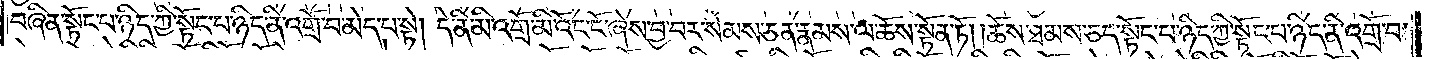བཞིན་སྟོང་པ་ཉིད་ཀྱི་སྟོང་པ་ཉིད་ནི་འགྲོ་བ་མེད་པ་སྟེ། དེ་ནི་མི་འགྲོ་མི་འོང་ངོ་ཞེས་བྱ་བར་སེམས་ཅན་རྣམས་ལ་ཆོས་སྟོན་ཏོ། །ཆོས་ཐམས་ཅད་སྟོང་པ་ཉིད་ཀྱི་སྟོང་པ་ཉིད་ནི་འགྲོ་བ་
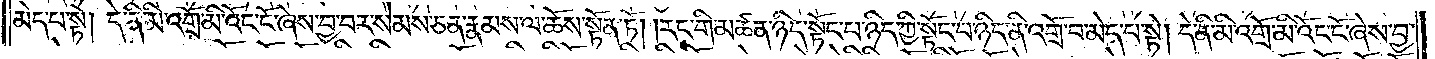མེད་པ་སྟེ། དེ་ནི་མི་འགྲོ་མི་འོང་ངོ་ཞེས་བྱ་བར་སེམས་ཅན་རྣམས་ལ་ཆོས་སྟོན་ཏོ། །རང་གི་མཚན་ཉིད་སྟོང་པ་ཉིད་ཀྱི་སྟོང་པ་ཉིད་ནི་འགྲོ་བ་མེད་པ་སྟེ། དེ་ནི་མི་འགྲོ་མི་འོང་ངོ་ཞེས་བྱ་
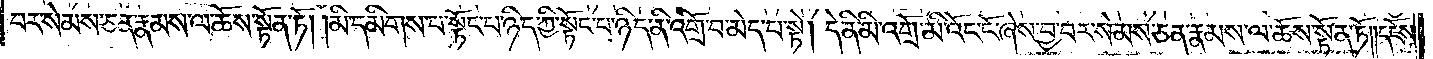བར་སེམས་ཅན་རྣམས་ལ་ཆོས་སྟོན་ཏོ། །མི་དམིགས་པ་སྟོང་པ་ཉིད་ཀྱི་སྟོང་པ་ཉིད་ནི་འགྲོ་བ་མེད་པ་སྟེ། དེ་ནི་མི་འགྲོ་མི་འོང་ངོ་ཞེས་བྱ་བར་སེམས་ཅན་རྣམས་ལ་ཆོས་སྟོན་ཏོ། །དངོས་
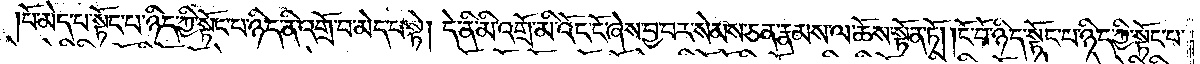པོ་མེད་པ་སྟོང་པ་ཉིད་ཀྱི་སྟོང་པ་ཉིད་ནི་འགྲོ་བ་མེད་པ་སྟེ། དེ་ནི་མི་འགྲོ་མི་འོང་ངོ་ཞེས་བྱ་བར་སེམས་ཅན་རྣམས་ལ་ཆོས་སྟོན་ཏོ། །ངོ་བོ་ཉིད་སྟོང་པ་ཉིད་ཀྱི་སྟོང་པ་
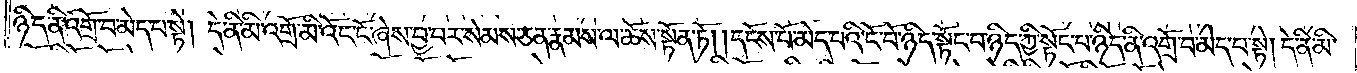ཉིད་ནི་འགྲོ་བ་མེད་པ་སྟེ། དེ་ནི་མི་འགྲོ་མི་འོང་ངོ་ཞེས་བྱ་བར་སེམས་ཅན་རྣམས་ལ་ཆོས་སྟོན་ཏོ། །དངོས་པོ་མེད་པའི་ངོ་བོ་ཉིད་སྟོང་པ་ཉིད་ཀྱི་སྟོང་པ་ཉིད་ནི་འགྲོ་བ་མེད་པ་སྟེ། དེ་ནི་མི་
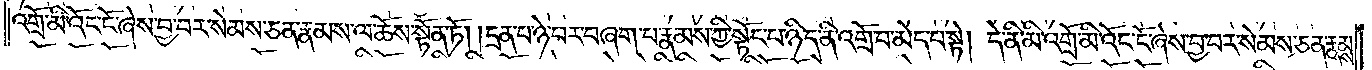འགྲོ་མི་འོང་ངོ་ཞེས་བྱ་བར་སེམས་ཅན་རྣམས་ལ་ཆོས་སྟོན་ཏོ། །དྲན་པ་ཉེ་བར་བཞག་པ་རྣམས་ཀྱི་སྟོང་པ་ཉིད་ནི་འགྲོ་བ་མེད་པ་སྟེ། དེ་ནི་མི་འགྲོ་མི་འོང་ངོ་ཞེས་བྱ་བར་སེམས་ཅན་རྣམས་
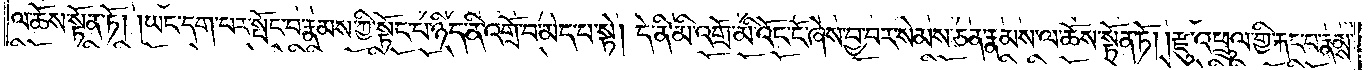ལ་ཆོས་སྟོན་ཏོ། །ཡང་དག་པར་སྤོང་བ་རྣམས་ཀྱི་སྟོང་པ་ཉིད་ནི་འགྲོ་བ་མེད་པ་སྟེ། དེ་ནི་མི་འགྲོ་མི་འོང་ངོ་ཞེས་བྱ་བར་སེམས་ཅན་རྣམས་ལ་ཆོས་སྟོན་ཏོ། །རྫུ་འཕྲུལ་གྱི་རྐང་པ་རྣམས་
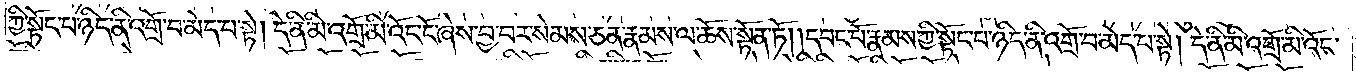ཀྱི་སྟོང་པ་ཉིད་ནི་འགྲོ་བ་མེད་པ་སྟེ། དེ་ནི་མི་འགྲོ་མི་འོང་ངོ་ཞེས་བྱ་བར་སེམས་ཅན་རྣམས་ལ་ཆོས་སྟོན་ཏོ། །དབང་པོ་རྣམས་ཀྱི་སྟོང་པ་ཉིད་ན་འགྲོ་བ་མེད་པ་སྟེ། དེ་ནི་མི་འགྲོ་མི་འོང་
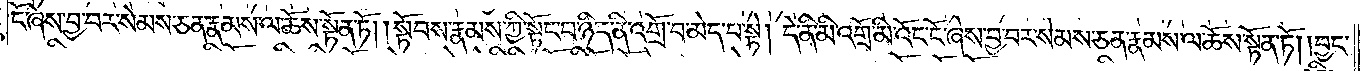ངོ་ཞེས་བྱ་བར་སེམས་ཅན་རྣམས་ལ་ཆོས་སྟོན་ཏོ། །སྟོབས་རྣམས་ཀྱི་སྟོང་པ་ཉིད་ནི་འགྲོ་བ་མེད་པ་སྟེ། དེ་ནི་མི་འགྲོ་མི་འོང་ངོ་ཞེས་བྱ་བར་སེམས་ཅན་རྣམས་ལ་ཆོས་སྟོན་ཏོ། །བྱང་
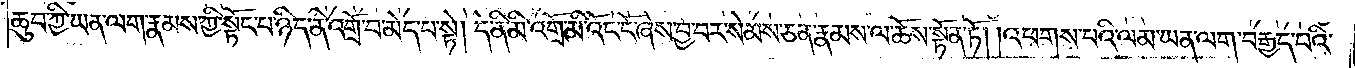ཆུབ་ཀྱི་ཡན་ལག་རྣམས་ཀྱི་སྟོང་པ་ཉིད་ནི་འགྲོ་བ་མེད་པ་སྟེ། དེ་ནི་མི་འགྲོ་མི་འོང་ངོ་ཞེས་བྱ་བར་སེམས་ཅན་རྣམས་ལ་ཆོས་སྟོན་ཏོ། །འཕགས་པའི་ལམ་ཡན་ལག་བརྒྱད་པའི་
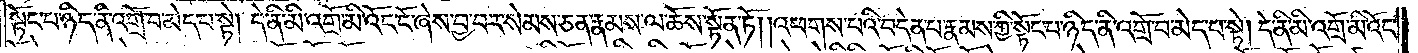སྟོང་པ་ཉིད་ནི་འགྲོ་བ་མེད་པ་སྟེ། དེ་ནི་མི་འགྲོ་མི་འོང་ངོ་ཞེས་བྱ་བར་སེམས་ཅན་རྣམས་ལ་ཆོས་སྟོན་ཏོ། །འཕགས་པའི་བདེན་པ་རྣམས་ཀྱི་སྟོང་པ་ཉིད་ནི་འགྲོ་བ་མེད་པ་སྟེ། དེ་ནི་མི་འགྲོ་མི་འོང་
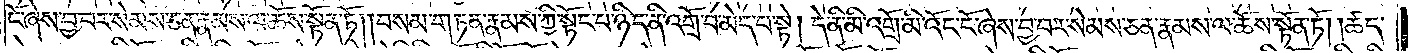ངོ་ཞེས་བྱ་བར་སེམས་ཅན་རྣམས་ལ་ཆོས་སྟོན་ཏོ། །བསམ་གཏན་རྣམས་ཀྱི་སྟོང་པ་ཉིད་ནི་འགྲོ་བ་མེད་པ་སྟེ། དེ་ནི་མི་འགྲོ་མི་འོང་ངོ་ཞེས་བྱ་བར་སེམས་ཅན་རྣམས་ལ་ཆོས་སྟོན་ཏོ། །ཚད་
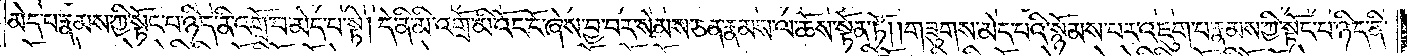མེད་པ་རྣམས་ཀྱི་སྟོང་པ་ཉིད་ནི་འགྲོ་བ་མེད་པ་སྟེ། དེ་ནི་མི་འགྲོ་མི་འོང་ངོ་ཞེས་བྱ་བར་སེམས་ཅན་རྣམས་ལ་ཆོས་སྟོན་ཏོ། །གཟུགས་མེད་པའི་སྙོམས་པར་འཇུག་པ་རྣམས་ཀྱི་སྟོང་པ་ཉིད་ནི་
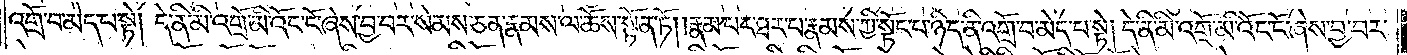འགྲོ་བ་མེད་པ་སྟེ། དེ་ནི་མི་འགྲོ་མི་འོང་ངོ་ཞེས་བྱ་བར་སེམས་ཅན་རྣམས་ལ་ཆོས་སྟོན་ཏོ། །རྣམ་པར་ཐར་པ་རྣམས་ཀྱི་སྟོང་པ་ཉིད་ནི་འགྲོ་བ་མེད་པ་སྟེ། དེ་ནི་མི་འགྲོ་མི་འོང་ངོ་ཞེས་བྱ་བར་
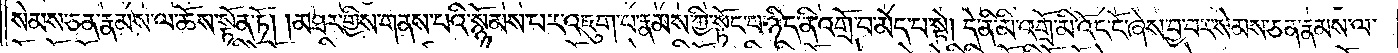སེམས་ཅན་རྣམས་ལ་ཆོས་སྟོན་ཏོ། །མཐར་གྱིས་ངས་པའི་སྙོམས་པར་འཇུག་པ་རྣམས་ཀྱི་སྟོང་པ་ཉིད་ནི་འགྲོ་བ་མེད་པ་སྟེ། དེ་ནི་མི་འགྲོ་མི་འོང་ངོ་ཞེས་བྱ་བར་སེམས་ཅན་རྣམས་ལ་
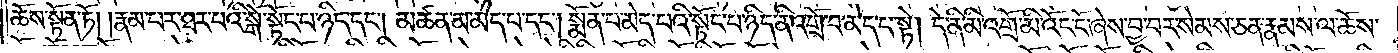ཆོས་སྟོན་ཏོ། །རྣམ་པར་ཐར་པའི་སྒོ་སྟོང་པ་ཉིད་དང༌། མཚན་མ་མེད་པ་དང༌། སྨོན་པ་མེད་པའི་སྟོང་པ་ཉིད་ནི་འགྲོ་བ་མེད་པ་སྟེ། དེ་ནི་མི་འགྲོ་མི་འོང་ངོ་ཞེས་བྱ་བར་སེམས་ཅན་རྣམས་ལ་ཆོས་
